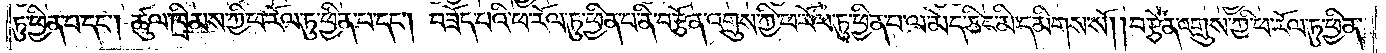ཏུ་ཕྱིན་པ་དང༌། ཚུལ་ཁྲིམས་ཀྱི་ཕ་རོལ་ཏུ་ཕྱིན་པ་དང༌། བཟོད་པའི་ཕ་རོལ་ཏུ་ཕྱིན་པ་ནི་བརྩོན་འགྲུས་ཀྱི་ཕ་རོལ་ཏུ་ཕྱིན་པ་ལ་མེད་ཅིང་མི་དམིགས་སོ། །བརྩོན་འགྲུས་ཀྱི་ཕ་རོལ་ཏུ་ཕྱིན་
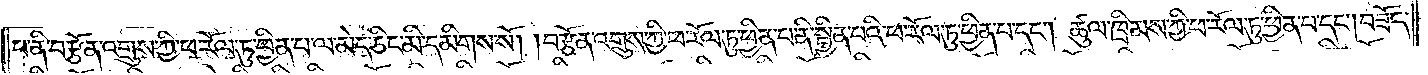པ་ནི། བརྩོན་འགྲུས་ཀྱི་ཕ་རོལ་ཏུ་ཕྱིན་པ་ལ་མེད་ཅིང་མི་དམིགས་སོ། །བརྩོན་འགྲུས་ཀྱི་ཕ་རོལ་ཏུ་ཕྱིན་པ་ནི་སྦྱིན་པའི་ཕ་རོལ་ཏུ་ཕྱིན་པ་དང༌། ཚུལ་ཁྲིམས་ཀྱི་ཕ་རོལ་ཏུ་ཕྱིན་པ་དང༌། བཟོད་
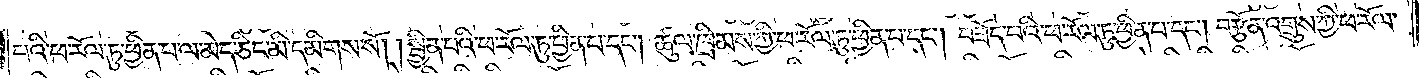པའི་ཕ་རོལ་ཏུ་ཕྱིན་པ་ལ་མེད་ཅིང་མི་དམིགས་སོ། །སྦྱིན་པའི་ཕ་རོལ་ཏུ་ཕྱིན་པ་དང༌། ཚུལ་ཁྲིམས་ཀྱི་ཕ་རོལ་ཏུ་ཕྱིན་པ་དང༌། བཟོད་པའི་ཕ་རོལ་ཏུ་ཕྱིན་པ་དང༌། བརྩོན་འགྲུས་ཀྱི་ཕ་རོལ་
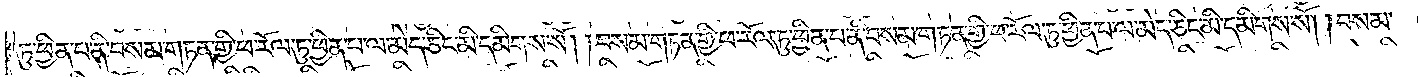ཏུ་ཕྱིན་པ་ནི་བསམ་གཏན་གྱི་ཕ་རོལ་ཏུ་ཕྱིན་པ་ལ་མེད་ཅིང་མི་དམིགས་སོ། །བསམ་གཏན་གྱི་ཕ་རོལ་ཏུ་ཕྱིན་པ་ནི་བསམ་གཏན་གྱི་ཕ་རོལ་ཏུ་ཕྱིན་པ་ལ་མེད་ཅིང་མི་དམིགས་སོ། །བསམ་
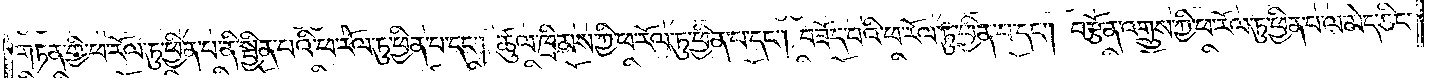གཏན་གྱི་ཕ་རོལ་ཏུ་ཕྱིན་པ་ནི་སྦྱིན་པའི་ཕ་རོལ་ཏུ་ཕྱིན་པ་དང༌། ཚུལ་ཁྲིམས་ཀྱི་ཕ་རོལ་ཏུ་ཕྱིན་པ་དང༌། བཟོད་པའི་ཕ་རོལ་ཏུ་ཕྱིན་པ་དང༌། བརྩོན་འགྲུས་ཀྱི་ཕ་རོལ་ཏུ་ཕྱིན་པ་ལ་མེད་ཅིང་
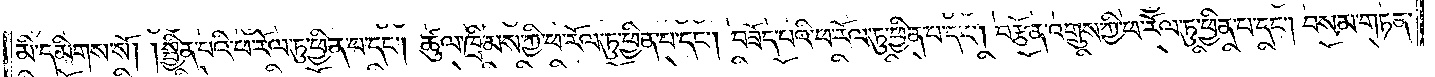མི་དམིགས་སོ། །སྦྱིན་པའི་ཕ་རོལ་ཏུ་ཕྱིན་པ་དང༌། ཚུལ་ཁྲིམས་ཀྱི་ཕ་རོལ་ཏུ་ཕྱིན་པ་དང༌། བཟོད་པའི་ཕ་རོལ་ཏུ་ཕྱིན་པ་དང༌། བརྩོན་འགྲུས་ཀྱི་ཕ་རོལ་ཏུ་ཕྱིན་པ་དང༌། བསམ་གཏན་
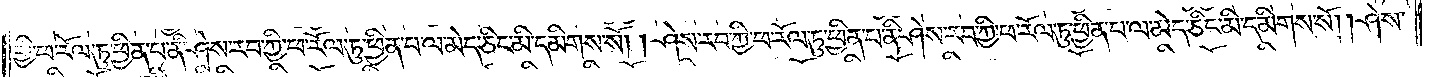གྱི་ཕ་རོལ་ཏུ་ཕྱིན་པ་ནི་ཤེས་རབ་ཀྱི་ཕ་རོལ་ཏུ་ཕྱིན་པ་ལ་མེད་ཅིང་མི་དམིགས་སོ། །ཤེས་རབ་ཀྱི་ཕ་རོལ་ཏུ་ཕྱིན་པ་ནི་ཤེས་རབ་ཀྱི་ཕ་རོལ་ཏུ་ཕྱིན་པ་ལ་མེད་ཅིང་མི་དམིགས་སོ། །ཤེས་
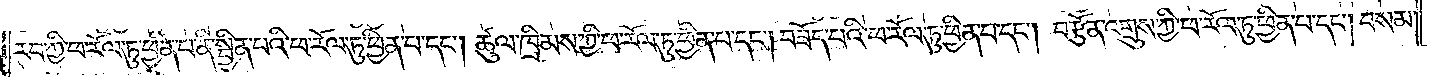རབ་ཀྱི་ཕ་རོལ་ཏུ་ཕྱིན་པ་ནི་སྦྱིན་པའི་ཕ་རོལ་ཏུ་ཕྱིན་པ་དང༌། ཚུལ་ཁྲིམས་ཀྱི་ཕ་རོལ་ཏུ་ཕྱིན་པ་དང༌། བཟོད་པའི་ཕ་རོལ་ཏུ་ཕྱིན་པ་དང༌། བརྩོན་འགྲུས་ཀྱི་ཕ་རོལ་ཏུ་ཕྱིན་པ་དང༌། བསམ་
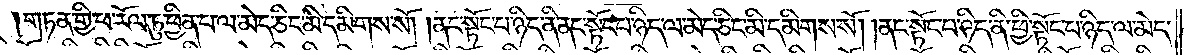གཏན་གྱི་ཕ་རོལ་ཏུ་ཕྱིན་པ་ལ་མེད་ཅིང་མི་དམིགས་སོ། །ནང་སྟོང་པ་ཉིད་ནི་ནང་སྟོང་པ་ཉིད་ལ་མེད་ཅིང་མི་དམིགས་སོ། །ནང་སྟོང་པ་ཉིད་ནི་ཕྱི་སྟོང་པ་ཉིད་ལ་མེད་
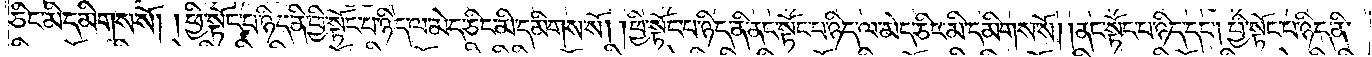ཅིང་མི་དམིགས་སོ། །ཕྱི་སྟོང་པ་ཉིད་ནི་ཕྱི་སྟོང་པ་ཉིད་ལ་མེད་ཅིང་མི་དམིགས་སོ། །ཕྱི་སྟོང་པ་ཉིད་ནི་ནང་སྟོང་པ་ཉིད་ལ་མེད་ཅིང་མི་དམིགས་སོ། །ནང་སྟོང་པ་ཉིད་དང༌། ཕྱི་སྟོང་པ་ཉིད་ནི་
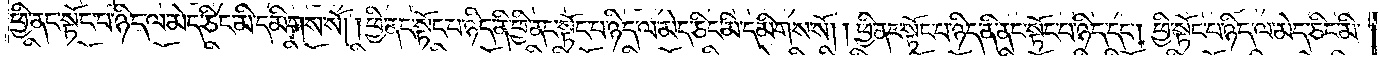ཕྱི་ནང་སྟོང་པ་ཉིད་ལ་མེད་ཅིང་མི་དམིགས་སོ། །ཕྱི་ནང་སྟོང་པ་ཉིད་ནི་ཕྱི་ནང་སྟོང་པ་ཉིད་ལ་མེད་ཅིང་མི་དམིགས་སོ། །ཕྱི་ནང་སྟོང་པ་ཉིད་ནི་ནང་སྟོང་པ་ཉིད་དང༌། ཕྱི་སྟོང་པ་ཉིད་ལ་མེད་ཅིང་མི་
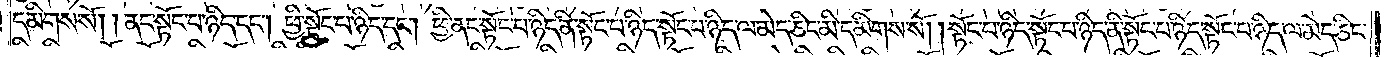དམིགས་སོ། །ནང་སྟོང་པ་ཉིད་དང༌། ཕྱི་སྟོང་པ་ཉིད་དང༌། ཕྱི་ནང་སྟོང་པ་ཉིད་ནི་སྟོང་པ་ཉིད་སྟོང་པ་ཉིད་ལ་མེད་ཅིང་མི་དམིགས་སོ། །སྟོང་པ་ཉིད་སྟོང་པ་ཉིད་ནི་སྟོང་པ་ཉིད་སྟོང་པ་ཉིད་ལ་མེད་ཅིང་
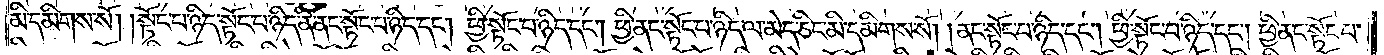མི་དམིགས་སོ། །སྟོང་པ་ཉིད་སྟོང་པ་ཉིད་ནི་ནང་སྟོང་པ་ཉིད་དང༌། ཕྱི་སྟོང་པ་ཉིད་དང༌། ཕྱི་ནང་སྟོང་པ་ཉིད་ལ་མེད་ཅིང་མི་དམིགས་སོ། ནང་སྟོང་པ་ཉིད་དང༌། ཕྱི་སྟོང་པ་ཉིད་དང༌། ཕྱི་ནང་སྟོང་པ་
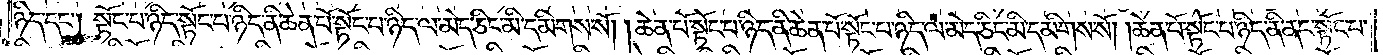ཉིད་དང༌། སྟོང་པ་ཉིད་སྟོང་པ་ཉིད་ནི་ཆེན་པོ་སྟོང་པ་ཉིད་ལ་མེད་ཅིང་མི་དམིགས་སོ། །ཆེན་པོ་སྟོང་པ་ཉིད་ནི་ཆེན་པོ་སྟོང་པ་ཉིད་ལ་མེད་ཅིང་མི་དམིགས་སོ། །ཆེན་པོ་སྟོང་པ་ཉིད་ནི་ནང་སྟོང་པ་
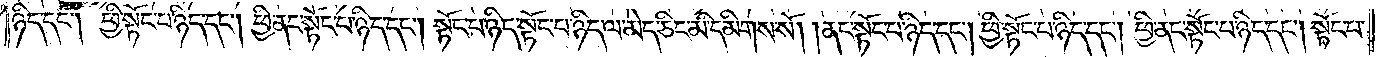ཉིད་དང༌། ཕྱི་སྟོང་པ་ཉིད་དང༌། ཕྱི་ནང་སྟོང་པ་ཉིད་དང༌། སྟོང་པ་ཉིད་སྟོང་པ་ཉིད་ལ་མེད་ཅིང་མི་དམིགས་སོ། །ནང་སྟོང་པ་ཉིད་དང༌། ཕྱི་སྟོང་པ་ཉིད་དང༌། ཕྱི་ནང་སྟོང་པ་ཉིད་དང༌། སྟོང་པ་
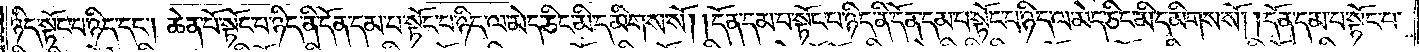ཉིད་སྟོང་པ་ཉིད་དང༌། ཆེན་པོ་སྟོང་པ་ཉིད་ནི་དོན་དམ་པ་སྟོང་པ་ཉིད་ལ་མེད་ཅིང་མི་དམིགས་སོ། །དོན་དམ་པ་སྟོང་པ་ཉིད་ནི་དོན་དམ་པ་སྟོང་པ་ཉིད་ལ་མེད་ཅིང་མི་དམིགས་སོ། །དོན་དམ་པ་སྟོང་པ་
